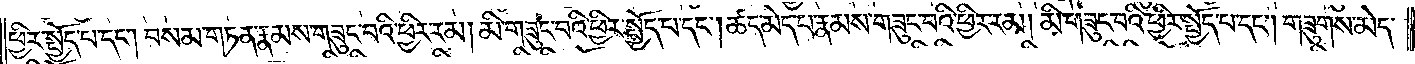ཕྱིར་སྤྱོད་པ་དང༌། བསམ་གཏན་རྣམས་གཟུང་བའི་ཕྱིར་རམ། མི་གཟུང་བའི་ཕྱིར་སྤྱོད་པ་དང༌། ཚད་མེད་པ་རྣམས་གཟུང་བའི་ཕྱིར་རམ། མི་གཟུང་བའི་ཕྱིར་སྤྱོད་པ་དང༌། གཟུགས་མེད་
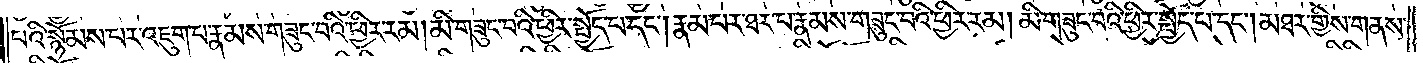པའི་སྙོམས་པར་འཇུག་པ་རྣམས་གཟུང་བའི་ཕྱིར་རམ། མི་གཟུང་བའི་ཕྱིར་སྤྱོད་པ་དང༌། རྣམ་པར་ཐར་པ་རྣམས་གཟུང་བའི་ཕྱིར་རམ། མི་གཟུང་བའི་ཕྱིར་སྤྱོད་པ་དང༌། མཐར་གྱིས་གནས་
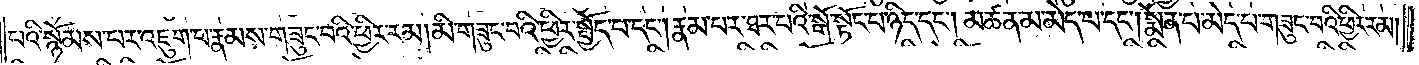པའི་སྙོམས་པར་འཇུག་པ་རྣམས་གཟུང་བའི་ཕྱིར་རམ། མི་གཟུང་བའི་ཕྱིར་སྤྱོད་པ་དང༌། རྣམ་པར་ཐར་པའི་སྒོ་སྟོང་པ་ཉིད་དང༌། མཚན་མ་མེད་པ་དང༌། སྨོན་པ་མེད་པ་གཟུང་བའི་ཕྱིར་རམ།
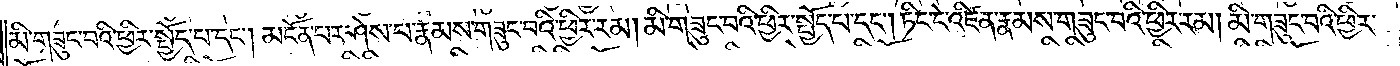མི་གཟུང་བའི་ཕྱིར་སྤྱོད་པ་དང༌། མངོན་པར་ཤེས་པ་རྣམས་གཟུང་བའི་ཕྱིར་རམ། མི་གཟུང་བའི་ཕྱིར་སྤྱོད་པ་དང༌། ཏིང་ངེ་འཛིན་རྣམས་གཟུང་བའི་ཕྱིར་རམ། མི་གཟུང་བའི་ཕྱིར་
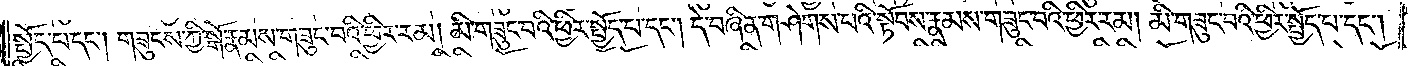སྤྱོད་པ་དང༌། གཟུངས་ཀྱི་སྒོ་རྣམས་གཟུང་བའི་ཕྱིར་རམ། མི་གཟུང་བའི་ཕྱིར་སྤྱོད་པ་དང༌། དེ་བཞིན་གཤེགས་པའི་སྟོབས་རྣམས་གཟུང་བའི་ཕྱིར་རམ། མི་གཟུང་བའི་ཕྱིར་སྤྱོད་པ་དང༌།
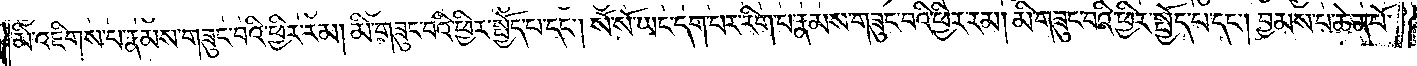མི་འཇིགས་པ་རྣམས་གཟུང་བའི་ཕྱིར་རམ། མི་གཟུང་བའི་ཕྱིར་སྤྱོད་པ་དང༌། སོ་སོ་ཡང་དག་པར་རིག་པ་རྣམས་གཟུང་བའི་ཕྱིར་རམ། མི་གཟུང་བའི་ཕྱིར་སྤྱོད་པ་དང༌། བྱམས་པ་ཆེན་པོ་
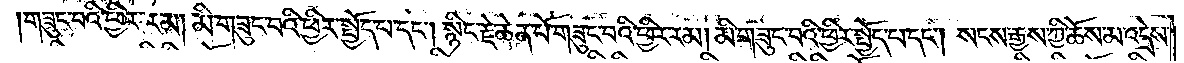གཟུང་བའི་ཕྱིར་རམ། མི་གཟུང་བའི་ཕྱིར་སྤྱོད་པ་དང༌། སྙིང་རྗེ་ཆེན་པོ་གཟུང་བའི་ཕྱིར་རམ། མི་གཟུང་བའི་ཕྱིར་སྤྱོད་པ་དང༌། སངས་རྒྱས་ཀྱི་ཆོས་མ་འདྲེས་
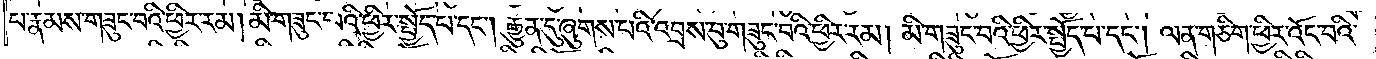པ་རྣམས་གཟུང་བའི་ཕྱིར་རམ། མི་གཟུང་བའི་ཕྱིར་སྤྱོད་པ་དང༌། རྒྱུན་དུ་ཞུགས་པའི་འབྲས་བུ་གཟུང་བའི་ཕྱིར་རམ། མི་གཟུང་བའི་ཕྱིར་སྤྱོད་པ་དང༌། ལན་གཅིག་ཕྱིར་འོང་བའི་
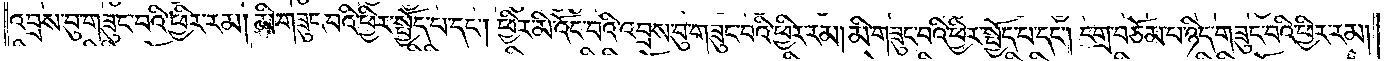འབྲས་བུ་གཟུང་བའི་ཕྱིར་རམ། མི་གཟུང་བའི་ཕྱིར་སྤྱོད་པ་དང༌། ཕྱིར་མི་འོང་བའི་འབྲས་བུ་གཟུང་བའི་ཕྱིར་རམ། མི་གཟུང་བའི་ཕྱིར་སྤྱོད་པ་དང༌། དགྲ་བཅོམ་པ་ཉིད་གཟུང་བའི་ཕྱིར་རམ།
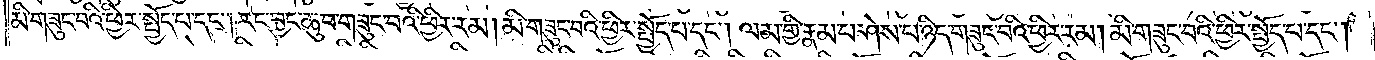མི་གཟུང་བའི་ཕྱིར་སྤྱོད་པ་དང༌། རང་བྱང་ཆུབ་གཟུང་བའི་ཕྱིར་རམ། མི་གཟུང་བའི་ཕྱིར་སྤྱོད་པ་དང༌། ལམ་གྱི་རྣམ་པ་ཤེས་པ་ཉིད་གཟུང་བའི་ཕྱིར་རམ། མི་གཟུང་བའི་ཕྱིར་སྤྱོད་པ་དང༌།
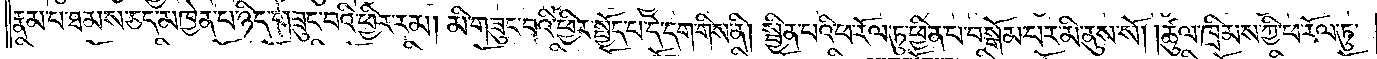རྣམ་པ་ཐམས་ཅད་མཁྱེན་པ་ཉིད་གཟུང་བའི་ཕྱིར་རམ། མི་གཟུང་བའི་ཕྱིར་སྤྱོད་པ་དེ་དག་གིས་ནི། སྦྱིན་པའི་ཕ་རོལ་ཏུ་ཕྱིན་པ་བསྒོམ་པར་མི་ནུས་སོ། །ཚུལ་ཁྲིམས་ཀྱི་ཕ་རོལ་ཏུ་
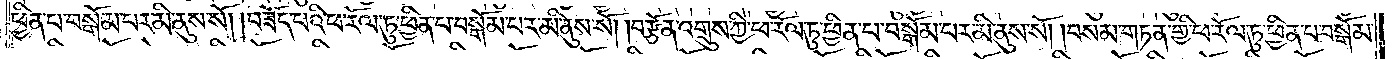ཕྱིན་པ་བསྒོམ་པར་མི་ནུས་སོ། །བཟོད་པའི་ཕ་རོལ་ཏུ་ཕྱིན་པ་བསྒོམ་པར་མི་ནུས་སོ། །བརྩོན་འགྲུས་གྱི་ཕ་རོལ་ཏུ་ཕྱིན་པ་བསྒོམ་པར་མི་ནུས་སོ། །བསམ་གཏན་གྱི་ཕ་རོལ་ཏུ་ཕྱིན་པ་བསྒོམ་
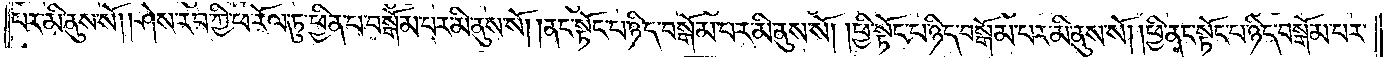པར་མི་ནུས་སོ། །ཤེས་རབ་ཀྱི་ཕ་རོལ་ཏུ་ཕྱིན་པ་བསྒོམ་པར་མི་ནུས་སོ། །ནང་སྟོང་པ་ཉིད་བསྒོམ་པར་མི་ནུས་སོ། །ཕྱི་སྟོང་པ་ཉིད་བསྒོམ་པར་མི་ནུས་སོ། །ཕྱི་ནང་སྟོང་པ་ཉིད་བསྒོམ་པར་
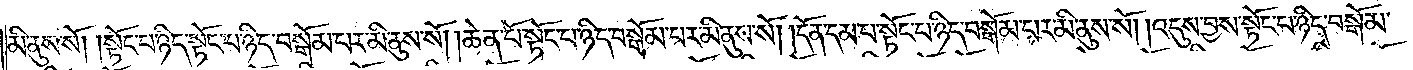མི་ནུས་སོ། །སྟོང་པ་ཉིད་སྟོང་པ་ཉིད་བསྒོམ་པར་མི་ནུས་སོ། །ཆེན་པོ་སྟོང་པ་ཉིད་བསྒོམ་པར་མི་ནུས་སོ། །དོན་དམ་པ་སྟོང་པ་ཉིད་བསྒོམ་པར་མི་ནུས་སོ། །འདུས་བྱས་སྟོང་པ་ཉིད་བསྒོམ་
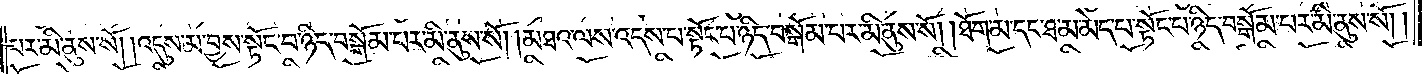པར་མི་ནུས་སོ། །འདུས་མ་བྱས་སྟོང་པ་ཉིད་བསྒོམ་པར་མི་ནུས་སོ། །མཐའ་ལས་འདས་པ་སྟོང་པ་ཉིད་བསྒོམ་པར་མི་ནུས་སོ། །ཐོག་མ་དང་ཐ་མ་མེད་པ་སྟོང་པ་ཉིད་བསྒོམ་པར་མི་ནུས་སོ། །
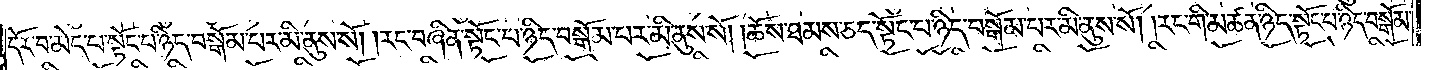དོར་བ་མེད་པ་སྟོང་པ་ཉིད་བསྒོམ་པར་མི་ནུས་སོ། །རང་བཞིན་སྟོང་པ་ཉིད་བསྒོམ་པར་མི་ནུས་སོ། །ཆོས་ཐམས་ཅད་སྟོང་པ་ཉིད་བསྒོམ་པར་མི་ནུས་སོ། །རང་གི་མཚན་ཉིད་སྟོང་པ་ཉིད་བསྒོམ་
